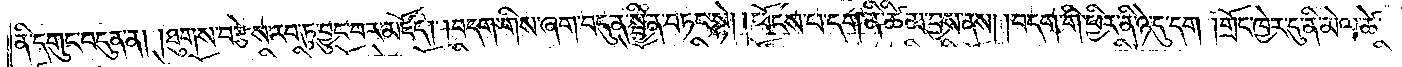ནི་དགུང་བདུན་ན། །ཐུགས་བརྩེས་རབ་ཏུ་བྱུང་བར་མཛོད། །བདག་གིས་ཞག་བདུན་སྦྱིན་བཏང་སྟེ། །ཕོངས་པ་དག་ནི་ཚིམ་བྱས་ནས། །བདག་གི་ཕྱིར་ནི་ཉེ་དུ་དག །གྲོང་ཁྱེར་དུ་ནི་མེལ་ཚེ་
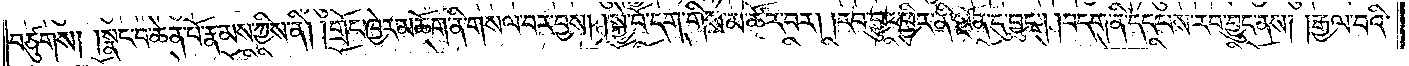བཙུགས། །སྣང་བ་ཆེན་པོ་རྣམས་ཀྱིས་ནི། །གྲོང་ཁྱེར་མཆོག་ནི་གསལ་བར་བྱས། །སྐྱེ་བོ་དག་གིས་མ་ཚོར་བར། །རབ་བྱུང་ཕྱིར་ནི་སྔོན་དུ་བྱུང༌། །བདག་ནི་དད་པས་རབ་བྱུང་ནས། །རྒྱལ་བའི་
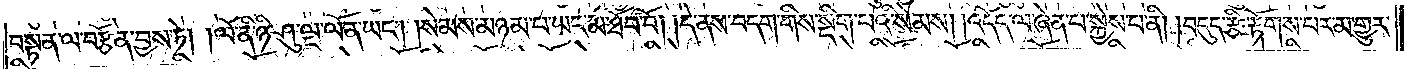བསྟན་ལ་བརྩོན་བྱས་ཏེ། །ལོ་ནི་ཉི་ཤུ་ལྔ་ལོན་ཡང༌། །སེམས་མཉམ་པ་ཡང་མ་ཐོབ་བོ། །དེ་ནས་བདག་གིས་སྡིག་པའི་སེམས། །འདོད་ལ་ཞེན་པ་སྐྱེས་པ་ནི། །བདུད་རྩི་རྟོགས་པར་མ་གྱུར་
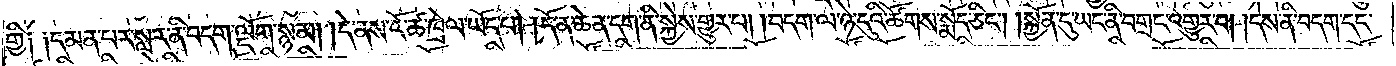གྱི༑ ༑དམན་པར་སླར་ནི་བདག་ལྡོག་སྙམ། །དེ་ནས་ངོ་ཚ་ཁྲེལ་ཡོད་པ། །དོན་ཆེན་དག་ནི་སྐྱེས་གྱུར་པ། །བདག་ལ་ཉེ་དུའི་ཚོགས་སྨོད་ཅིང༌། །སྐྱོན་དུ་ཡང་ནི་བགྲང་འགྱུར་བ། །དེས་ནི་བདག་དང་
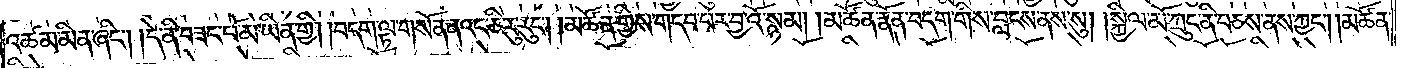འཚམ་མིན་ཞིང༌། །དེ་ནི་བཟང་པོ་མ་ཡིན་གྱི། །བདག་ལྟ་གསོན་ནའང་ཅི་རུ་རུང༌། །མཚོན་གྱིས་གདབ་པར་བྱའོ་སྙམ། །མཚོན་རྣོན་བདག་གིས་བླངས་ནས་སུ། །སྐྱིལ་མོ་ཀྲུང་ནི་བཅས་ནས་ཀྱང༌། །མཚོན་
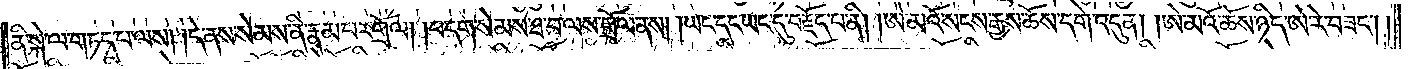ནི་སྐྱེ་ལ་གཏད་པ་ལས། །དེ་ནས་སེམས་ནི་རྣམ་པར་གྲོལ། །བདག་སེམས་ཐ་བ་ལས་གྲོལ་ནས། །ཡང་དང་ཡང་དུ་བརྗོད་པ་ནི། །ཨེ་མའོ་སངས་རྒྱས་ཆོས་དགེ་འདུན། །ཨེ་མའོ་ཆོས་ཉིད་ཨེ་རེ་བཟང༌། །
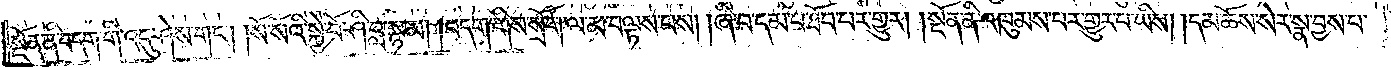སྔོན་ནི་བདག་གི་འདུ་ཤེས་གང༌། །སོ་སོའི་སྐྱེ་བོ་ཤི་བླ་སྙམ། །བདག་གིས་སྲོག་ལ་མ་བལྟས་པས། །ཞི་བ་དམ་པ་ཐོབ་པར་གྱུར། །སྔོན་ནི་འཁུམས་པར་གྱུར་པ་ཡིས། །དམ་ཆོས་སེར་སྣ་བྱས་པ་
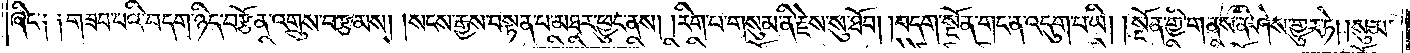ཞིང་༑ ༑གཟབ་པའི་བདག་ཉིད་བརྩོན་འགྲུས་བརྩམས། །སངས་རྒྱས་བསྟན་པ་མཐར་ཕྱུང་ནས། །རིག་པ་གསུམ་ནི་རྗེས་སུ་ཐོབ། །བདག་སྔོན་གང་ན་འདུག་པ་ཡི། །སྔོན་གྱི་གནས་ནི་ཤེས་གྱུར་ཏེ། །སུམ་
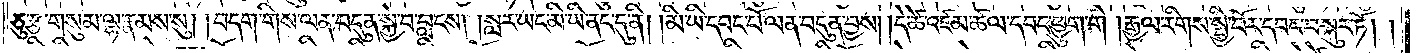ཅུ་རྩ་གསུམ་ལྷ་རྣམས་སུ། །བདག་གིས་ལན་བདུན་སྐྱེ་བ་བླངས། །སླར་ཡང་མི་ཡི་ནང་དུ་ནི། །མི་ཡི་དབང་པོ་ལན་བདུན་བྱས། །དེ་ཚེ་འཛམ་ཚལ་དབང་ཕྱུག་གི །རྒྱལ་རིགས་སྤྱི་བོར་དབང་བསྐུར་ཏོ། །
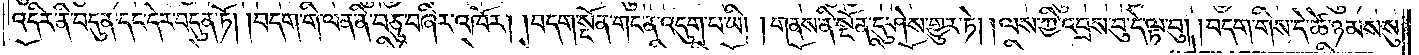འདིར་ནི་བདུན་དང་དེར་བདུན་ཏོ། །བདག་གི་ལན་ནི་བཅུ་བཞིར་འཁོར། །བདག་སྔོན་གང་ན་འདུག་པ་ཡི། །གནས་ནི་སྔོན་དུ་ཤེས་གྱུར་ཏེ། །ལས་ཀྱི་འབྲས་བུ་དེ་ལྟ་བུ། །བདག་གིས་དེ་ཚེ་ཉམས་སུ་
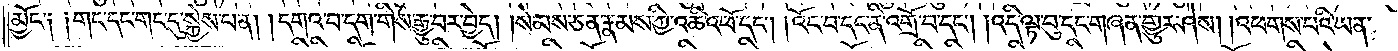མྱོང༌༑ ༑གང་དང་གང་དུ་སྐྱེས་པ་ན། །དགའ་བ་དག་གིས་རྒྱུ་བར་བྱེད། །སེམས་ཅན་རྣམས་ཀྱི་འཆི་འཕོ་དང༌། །འོང་བ་དང་ནི་འགྲོ་བ་དང༌། །འདི་ལྟ་བུ་དང་གཞན་གྱུར་ཤེས། །འཕགས་པའི་ཡན་
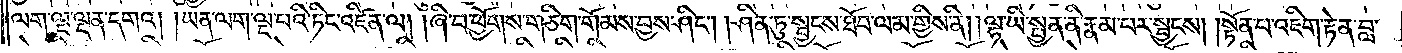ལག་ལྔ་ལྡན་དགའ། །ཡན་ལག་ལྔ་པའི་ཏིང་འཛིན་ལ། །ཞི་བ་ཕྱོགས་གཅིག་གོམས་བྱས་ཤིང༌། །ཤིན་ཏུ་སྦྱངས་ཐོབ་ལམ་གྱིས་ནི། །ལྷ་ཡི་སྤྱན་ནི་རྣམ་པར་སྦྱངས། །སྟོན་པ་འཇིག་རྟེན་བླ་
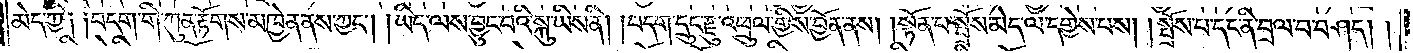མེད་ཀྱི༑ ༑བདག་གི་ཀུན་རྟོགས་མཁྱེན་ནས་ཀྱང༌། །ཡིད་ལས་བྱུང་བའི་སྐུ་ཡིས་ནི། །བདག་དྲུང་རྫུ་འཕྲུལ་གྱིས་བྱོན་ནས། །སྟོན་པ་སྤྲོས་མེད་ལ་དགྱེས་པས། །སྤྲོས་པ་དང་ནི་བྲལ་བ་བཤད། །
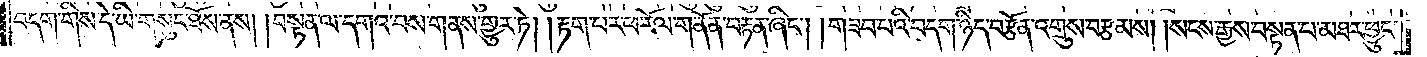བདག་གིས་དེ་ཡི་གསུང་ཐོས་ནས། །བསྟན་ལ་དགའ་བས་གནས་གྱུར་ཏེ། །རྟག་པར་ཕ་རོལ་གནོན་བརྟན་ཞིང༌། །གཟབ་པའི་བདག་ཉིད་བརྩོན་འགྲུས་བརྩམས། །སངས་རྒྱས་བསྟན་པ་མཐར་ཕྱུང་
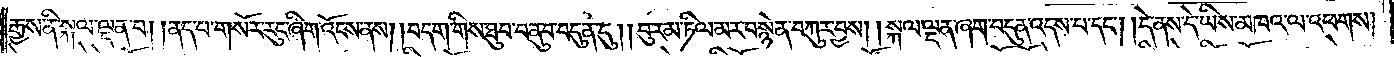རྒྱས་ནི་སྐལ་ལྡན་པ། །ནད་པ་གསོར་རུང་ཞིག་འོངས་ནས། །བདག་གིས་ཐུབ་པ་ནུབ་བདུན་དུ། །བུ་རམ་ཏིལ་མར་བསྙེན་བཀུར་བྱས། །སྐལ་ལྡན་ཞག་བདུན་འདས་པ་དང༌། །དེ་ནས་དེ་ཡིས་མཁའ་ལ་འཕགས། །
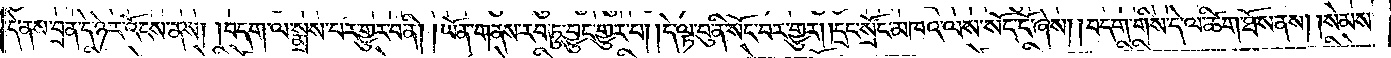དེ་ནས་བྲན་དེ་ཉེར་འོངས་ནས། །བདག་ལ་སྨྲས་པར་གྱུར་པ་ནི། །ཡོན་གནས་རབ་ཏུ་བྱུང་གྱུར་བ། །དེ་ལྟ་བུ་ནི་སོང་བར་གྱུར། །དྲང་སྲོང་མཁའ་ལས་སོང་ངོ་ཞེས། །བདག་གིས་དེ་ལ་ཚིག་ཐོས་ནས། །སེམས་
